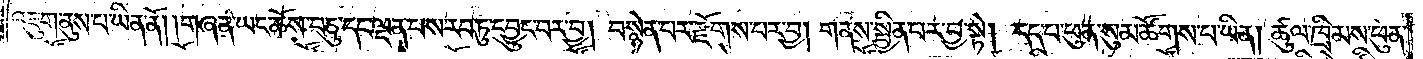འཇུག་ནུས་པ་ཡིན་ནོ། །གཞན་ཡང་ཆོས་བཅུ་དང་ལྡན་པས་རབ་ཏུ་དབྱུང་བར་བྱ། བསྙེན་པར་རྫོགས་པར་བྱ། གནས་སྦྱིན་པར་བྱ་སྟེ། དད་པ་ཕུན་སུམ་ཚོགས་པ་ཡིན། ཚུལ་ཁྲིམས་ཕུན་
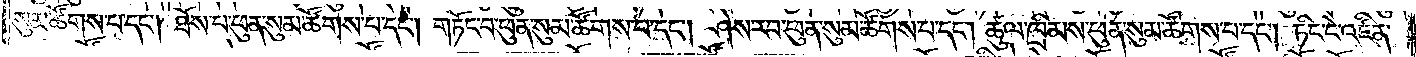སུམ་ཚོགས་པ་དང༌། ཐོས་པ་ཕུན་སུམ་ཚོགས་པ་དང༌། གཏོང་བ་ཕུན་སུམ་ཚོགས་པ་དང༌། ཤེས་རབ་ཕུན་སུམ་ཚོགས་པ་དང༌། ཚུལ་ཁྲིམས་ཕུན་སུམ་ཚོགས་པ་དང༌། ཏིང་ངེ་འཛིན་
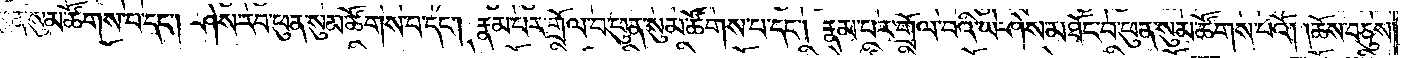ཕུན་སུམ་ཚོགས་པ་དང༌། ཤེས་རབ་ཕུན་སུམ་ཚོགས་པ་དང༌། རྣམ་པར་གྲོལ་བ་ཕུན་སུམ་ཚོགས་པ་དང༌། རྣམ་པར་གྲོལ་བའི་ཡེ་ཤེས་མཐོང་བ་ཕུན་སུམ་ཚོགས་པའོ། །ཆོས་བཅུས་
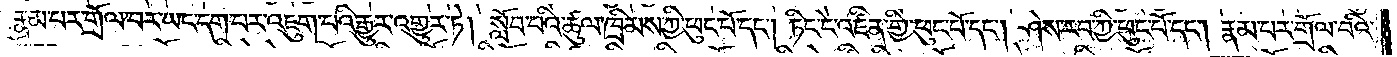རྣམ་པར་གྲོལ་བར་ཡང་དག་པར་འཇུག་པའི་རྒྱུར་འགྱུར་ཏེ། སློབ་པའི་ཚུལ་ཁྲིམས་ཀྱི་ཕུང་པོ་དང༌། ཏིང་ངེ་འཛིན་གྱི་ཕུང་པོ་དང༌། ཤེས་རབ་ཀྱི་ཕུང་པོ་དང༌། རྣམ་པར་གྲོལ་བའི་
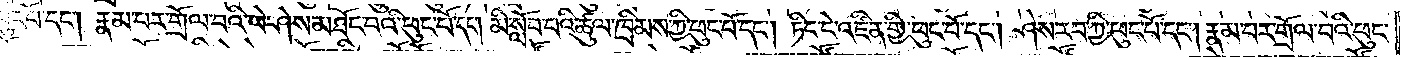ཕུང་པོ་དང༌། རྣམ་པར་གྲོལ་བའི་ཡེ་ཤེས་མཐོང་བའི་ཕུང་པོ་དང༌། མི་སློབ་པའི་ཚུལ་ཁྲིམས་ཀྱི་ཕུང་པོ་དང༌། ཏིང་ངེ་འཛིན་གྱི་ཕུང་པོ་དང༌། ཤེས་རབ་ཀྱི་ཕུང་པོ་དང༌། རྣམ་པར་གྲོལ་བའི་ཕུང་
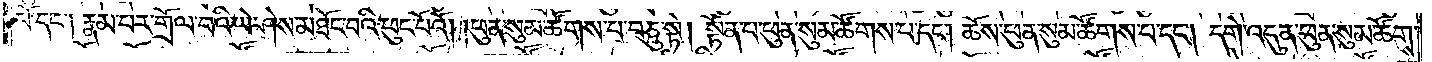པོ་དང༌། རྣམ་པར་གྲོལ་བའི་ཡེ་ཤེས་མཐོང་བའི་ཕུང་པོའོ། །ཕུན་སུམ་ཚོགས་པ་བཅུ་སྟེ། སྟོན་པ་ཕུན་སུམ་ཚོགས་པ་དང༌། ཆོས་ཕུན་སུམ་ཚོགས་པ་དང༌། དགེ་འདུན་ཕུན་སུམ་ཚོགས་
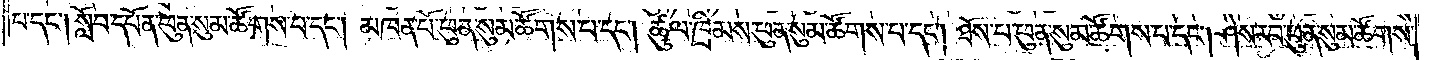པ་དང༌། སློབ་དཔོན་ཕུན་སུམ་ཚོགས་པ་དང༌། མཁན་པོ་ཕུན་སུམ་ཚོགས་པ་དང༌། ཚུལ་ཁྲིམས་ཕུན་སུམ་ཚོགས་པ་དང༌། ཐོས་པ་ཕུན་སུམ་ཚོགས་པ་དང༌། ཤེས་རབ་ཕུན་སུམ་ཚོགས་
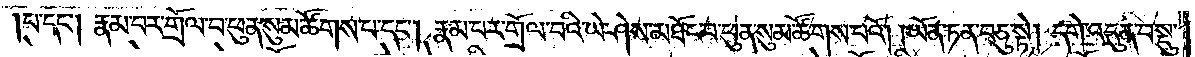པ་དང༌། རྣམ་པར་གྲོལ་བ་ཕུན་སུམ་ཚོགས་པ་དང༌། རྣམ་པར་གྲོལ་བའི་ཡེ་ཤེས་མཐོང་བ་ཕུན་སུམ་ཚོགས་པའོ། །ཡོན་ཏན་བཅུ་སྟེ། དགེ་འདུན་བསྡུ་
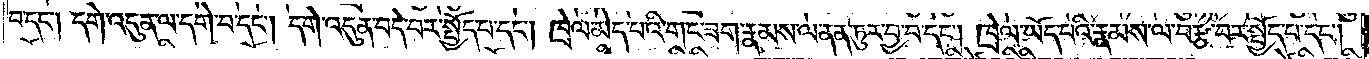བ་དང༌། དགེ་འདུན་ལ་དགེ་བ་དང༌། དགེ་འདུན་བདེ་བར་སྤྱོད་པ་དང༌། ཁྲེལ་མེད་པའི་གང་ཟག་རྣམས་ལ་ནན་ཏུར་བྱ་བ་དང༌། ཁྲེལ་ཡོད་པའི་རྣམས་ལ་བརྩེ་བར་སྤྱོད་པ་དང༌།
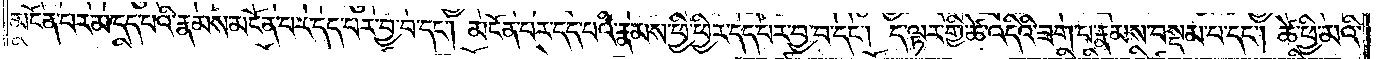མངོན་པར་མ་དད་པའི་རྣམས་མངོན་པར་དད་པར་བྱ་བ་དང༌། མངོན་པར་དད་པའི་རྣམས་ཕྱི་ཕྱིར་དད་པར་བྱ་བ་དང༌། ད་ལྟར་གྱི་ཚེ་འདིའི་ཟག་པ་རྣམས་བསྡམ་པ་དང༌། ཚེ་ཕྱི་མའི་
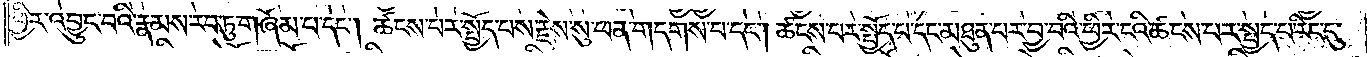ཕྱིར་འབྱུང་བའི་རྣམས་རབ་ཏུ་གཞོམ་པ་དང༌། ཚངས་པར་སྤྱོད་པས་རྗེས་སུ་ཕན་གདགས་པ་དང༌། ཚངས་པར་སྤྱོད་པ་དང་མཐུན་པར་བྱ་བའི་ཕྱིར་ངའི་ཚངས་པར་སྤྱད་པ་རིང་དུ་
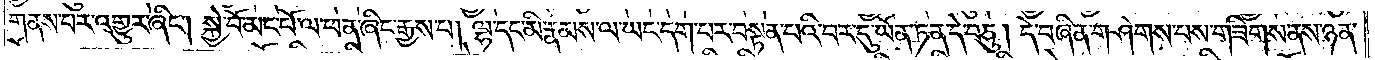གནས་པར་འགྱུར་ཞིང༌། སྐྱེ་བོ་མང་པོ་ལ་ཕན་ཞིང་རྒྱས་པ། ལྷ་དང་མི་རྣམས་ལ་ཡང་དག་པར་བསྟན་པའི་བར་དུ་ཡོན་ཏན་དེ་བཅུ། དེ་བཞིན་གཤེགས་པས་གཟིགས་ནས་ཉན་
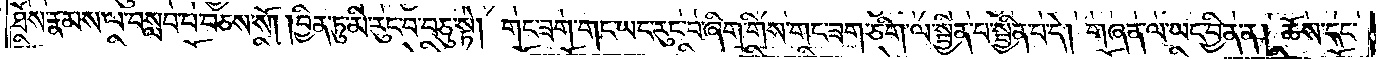ཐོས་རྣམས་ལ་བསླབ་པ་བཅས་སོ། །བྱིན་ཏུ་མི་རུང་བ་བཅུ་སྟེ། གང་ཟག་གང་ཡང་རུང་བ་ཞིག་གིས་གང་ཟག་ཅིག་ལ་སྦྱིན་པ་སྦྱིན་པ་དེ། གཞན་ལ་ཡང་བྱིན་ན། ཆོས་དང་
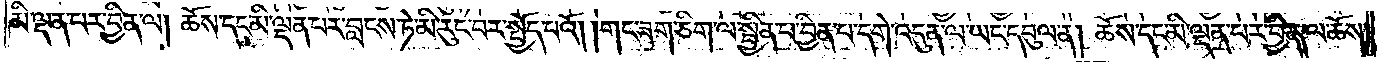མི་ལྡན་པར་བྱིན་ལ། ཆོས་དང་མི་ལྡན་པར་བླངས་ཏེ་མི་རུང་བར་སྤྱོད་པའོ། །གང་ཟག་ཅིག་ལ་སྦྱིན་པ་བྱིན་པ་དགེ་འདུན་ལ་ཡང་དབུལ་ན། ཆོས་དང་མི་ལྡན་པར་བྱིན་ལ་ཆོས་
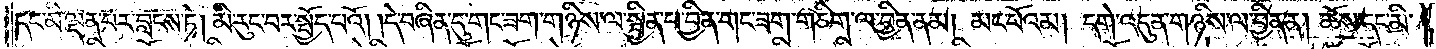དང་མི་ལྡན་པར་བླངས་ཏེ། མི་རུང་བར་སྤྱོད་པའོ། །དེ་བཞིན་དུ་གང་ཟག་གཉིས་ལ་སྦྱིན་པ་བྱིན་གང་ཟག་གཅིག་ལ་བྱིན་ནམ། མང་པོའམ། དགེ་འདུན་གཉིས་ལ་བྱིན་ན། ཆོས་དང་མི་
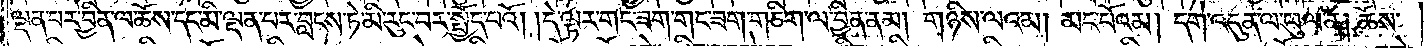ལྡན་པར་བྱིན་ལ་ཆོས་དང་མི་ལྡན་པར་བླངས་ཏེ་མི་རུང་བར་སྤྱོད་པའོ། །དེ་ལྟར་གང་ཟག་གང་ཟག་གཅིག་ལ་བྱིན་ནམ། གཉིས་ལའམ། མང་པོའམ། དགེ་འདུན་ལ་ཕུལ་ན། ཆོས་
